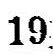19
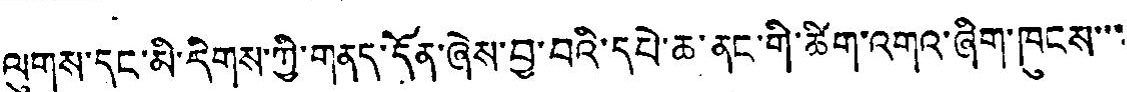ལུགས་དང་མི་རིགས་ཀྱི་གནད་དོན་ཞེས་བྱ་བའི་དཔེ་ཆ་ནང་གི་ཚིག་འགའ་ཞིག་ཁུངས་་་
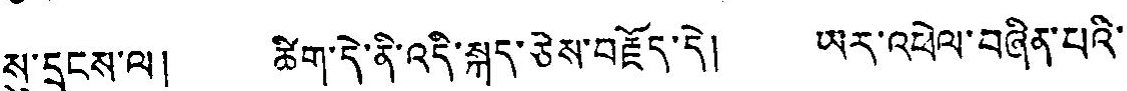སུ་དྲངས་ལ། ཚིག་དེ་ནི་འདི་སྐད་ཅེས་བརྗོད་དེ། ཡར་འཕེལ་བཞིན་པའི་
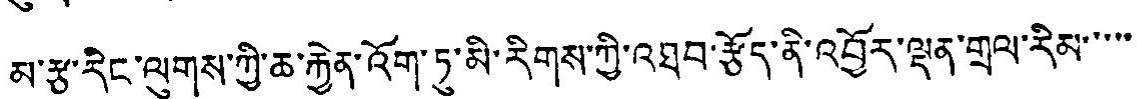མ་རྩ་རིང་ལུགས་ཀྱི་ཆ་རྐྱེན་འོག་ཏུ་མི་རིགས་ཀྱི་འཐབ་རྩོད་ནི་འབྱོར་ལྡན་གྲལ་རིམ་་་་་
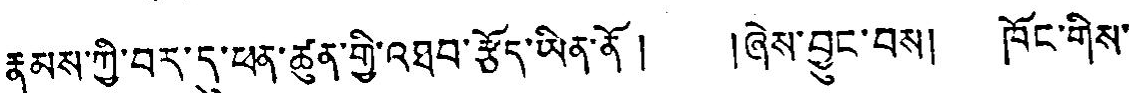རྣམས་ཀྱི་བར་དུ་ཕན་ཚུན་གྱི་འཐབ་རྩོད་ཡིན་ནོ ། །ཞེས་བྱུང་བས། ཁོང་གིས་
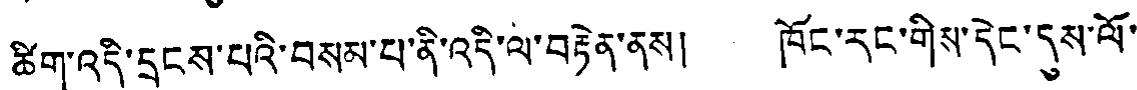ཚིག་འདི་དྲངས་པའི་བསམ་པ་ནི་འདི་ལ་བརྟེན་ནས། ཁོང་རང་གིས་དེང་དུས་ལོ་
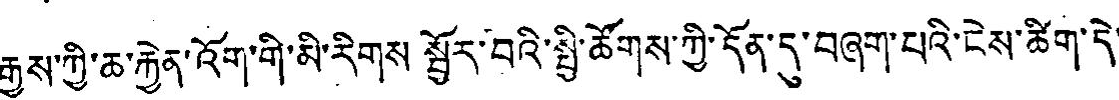རྒྱུས་ཀྱི་ཆ་རྐྱེན་འོག་གི་མི་རིགས་སྦྱོར་བའི་སྤྱི་ཚོགས་ཀྱི་དོན་དུ་བཞག་པའི་ངེས་ཚིག་དེ་
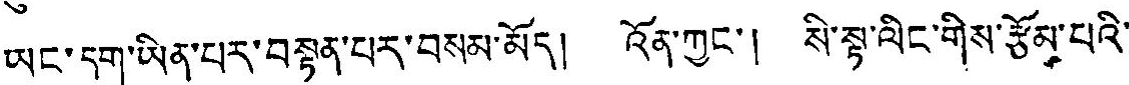ཡང་དག་ཡིན་པར་བསྟན་པར་བསམ་མོད། འོན་ཀྱང་། སི་སྟ་ལིང་གིས་རྩོམ་པའི་
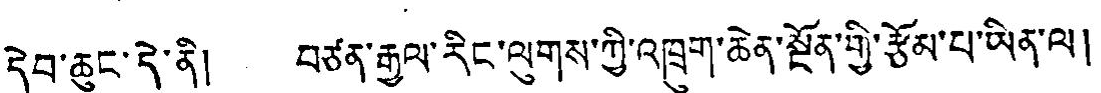དེབ་ཆུང་དེ་ནི། བཙན་རྒྱལ་རིང་ལུགས་ཀྱི་འཁྲུག་ཆེན་སྔོན་གྱི་རྩོམ་པ་ཡིན་ལ།
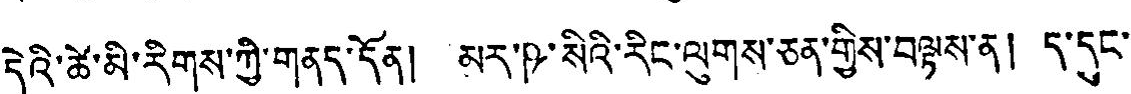དེའི་ཚེ་མི་རིགས་ཀྱི་གནད་དོན། མར་ཥ་སིའི་རིང་ལུགས་ཅན་གྱིས་བལྟས་ན། ད་དུང་
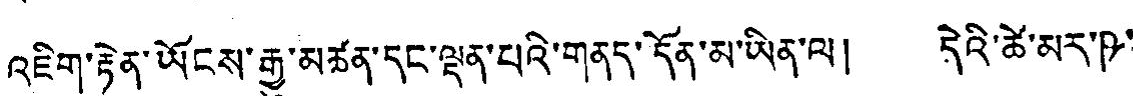འཇིག་རྟེན་ཡོངས་རྒྱུ་མཚན་དང་ལྡན་པའི་གནད་དོན་མ་ཡིན་ལ། དེའི་ཚེ་མར་ཥ་
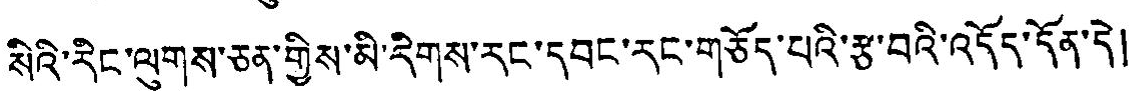སིའི་རིང་ལུགས་ཅན་གྱིས་མི་རིགས་རང་དབང་རང་གཅོད་པའི་རྩ་བའི་འདོད་དོན་དེ།
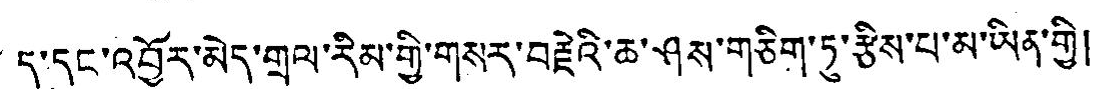ད་དུང་འབྱོར་མེད་གྲལ་རིམ་གྱི་གསར་བརྗེའི་ཆ་ཤས་གཅིག་ཏུ་རྩིས་པ་མ་ཡིན་གྱི།
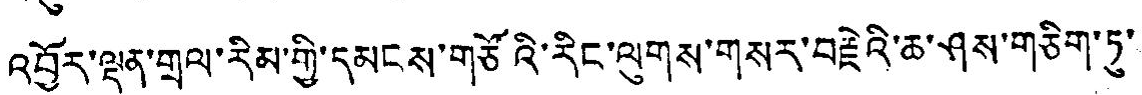འབྱོར་ལྡན་གྲལ་རིམ་གྱི་དམངས་གཙོའི་རིང་ལུགས་གསར་བརྗེའི་ཆ་ཤས་གཅིག་ཏུ་
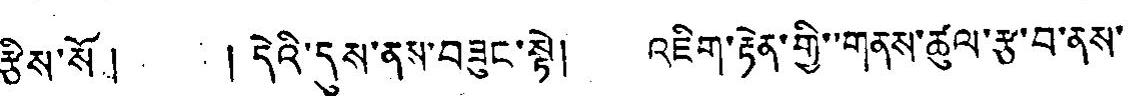རྩིས་སོ ། ། དེའི་དུས་ནས་བཟུང་སྟེ། འཇིག་རྟེན་གྱི་་གནས་ཙུལ་རྩ་བ་ནས་
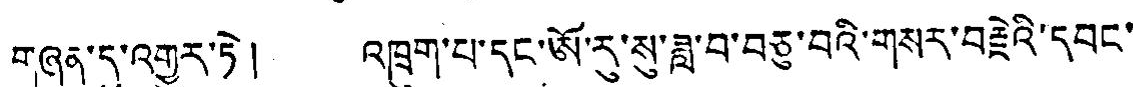གཞན་དུ་འགྱུར་ཏེ། འཁྲུག་པ་དང་ཨོ་རུ་སུ་ཟླ་བ་བཅུ་བའི་གསར་བརྗེའི་དབང་
